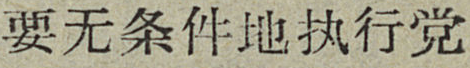要无条件地执行党
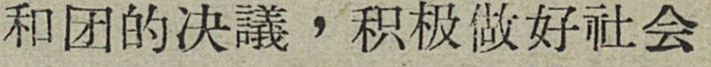和团的决議，积极做好社会
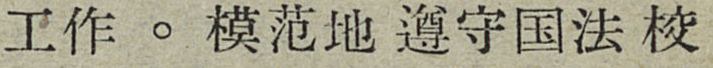工作。模范地遵守国法校
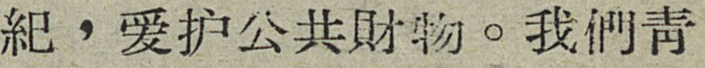紀，爱护公共財物。我們靑
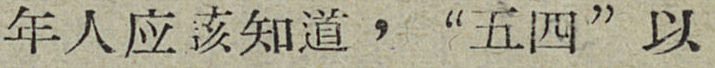年人应該知道，“五四”以
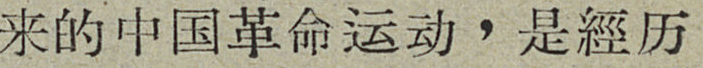来的中国革命运动，是經历
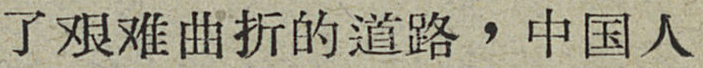了艰难曲折的道路，中国人
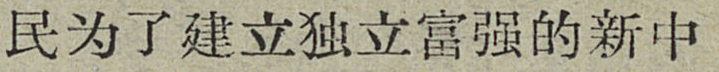民为了建立独立富强的新中
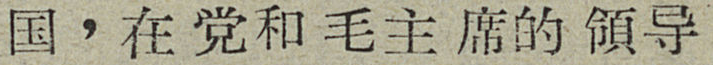国，在党和毛主席的領导
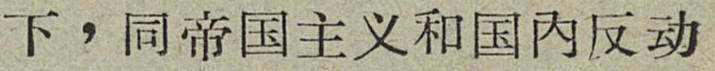下，同帝国主义和国内反动
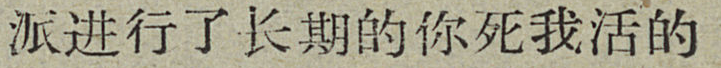派进行了长期的你死我活的
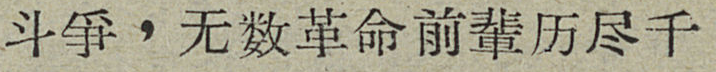斗爭，无数革命前輩历尽千
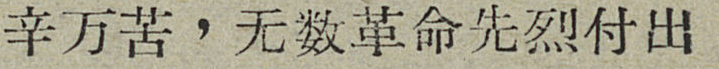辛万苦，无数革命先烈付出
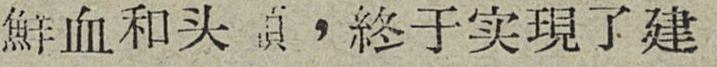鲜血和头顱，終于实現了建
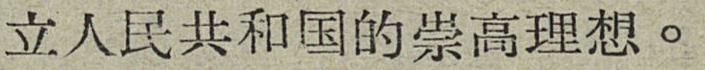立人民共和国的崇高理想。
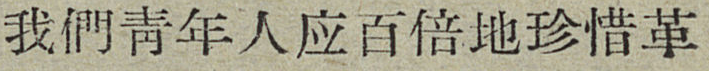我們靑年人应百倍地珍惜革
